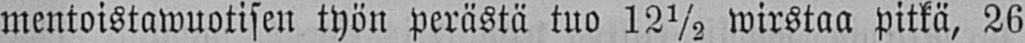mentoistawuotisen työn perästä tuo 12½ wirstaa pitkä, 26
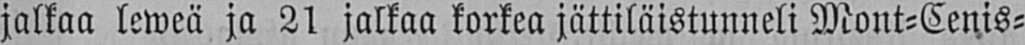jalkaa leweä ja 21 jalkaa korkea jättiläistunneli Mont-Cenis-
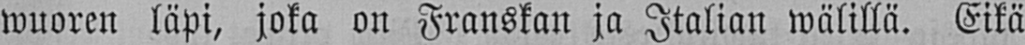wuoren läpi, joka on Franskan ja Italian wälillä. Eikä
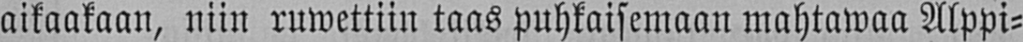aikaakaan, niin ruwettiin taas puhkaisemaan mahtawaa Alppi-
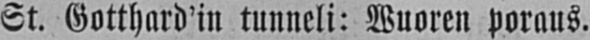St. Gotthard'in tunneli: Wuoren poraus.
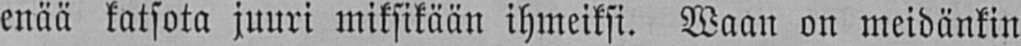enää katsota juuri miksikään ihmeiksi. Waan on meidänkin
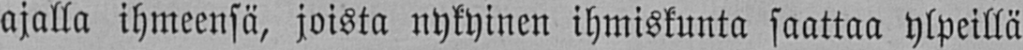ajalla ihmeensä, joista nykyinen ihmiskunta saattaa ylpeillä
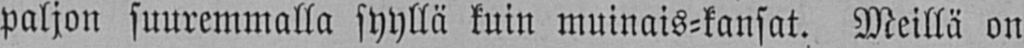paljon suuremmalla syyllä kuin muinais-kansat. Meillä on
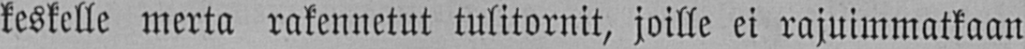keskelle merta rakennetut tulitornit, joille ei rajuimmatkaan
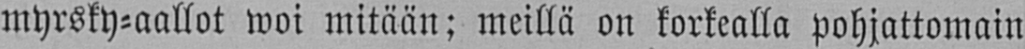myrsky-aallot woi mitään; meillä on korkealla pohjattomain
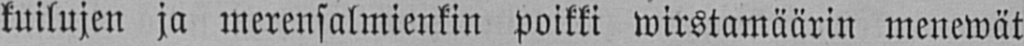kuilujen ja merensalmienkin poikki wirstamäärin menewät
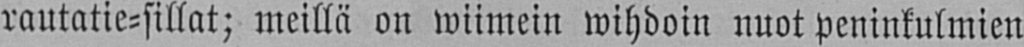rautatie-sillat; meillä on wiimein wihdoin nuot peninkulmien
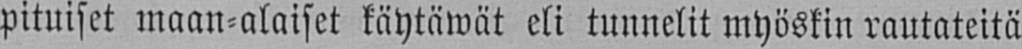pituiset maan-alaiset käytäwät eli tunnelit myöskin rautateitä
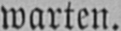warten.
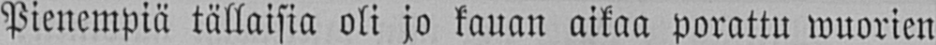Pienempiä tällaisia oli jo kauan aikaa porattu wuorien
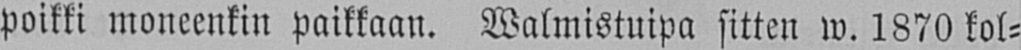poikki moneenkin paikkaan. Walmistuipa sitten w. 1870 kol-
